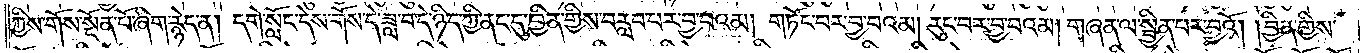ཀྱིས་གོས་སྔོན་པོ་ཞིག་རྙེད་ན། དགེ་སློང་དེས་གོས་དེ་ཟླ་བ་དེ་ཉིད་ཀྱི་ནང་དུ་བྱིན་གྱིས་བརླབ་པར་བྱ་བའམ། གཏོང་བར་བྱ་བའམ། རུང་བར་བྱ་བའམ། གཞན་ལ་སྦྱིན་པར་བྱའོ། །བྱིན་གྱིས་
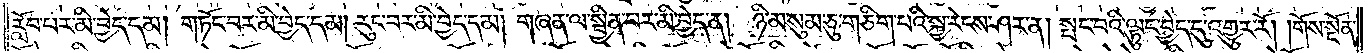རློབ་པར་མི་བྱེད་དམ། གཏོང་བར་མི་བྱེད་དམ། རུང་བར་མི་བྱེད་དམ། གཞན་ལ་སྦྱིན་པར་མི་བྱེད་ན། ཉི་མ་སུམ་ཅུ་གཅིག་པའི་སྐྱ་རེངས་ཤར་ན། སྤང་བའི་ལྟུང་བྱེད་དུ་འགྱུར་རོ། །གོས་སྔོན་
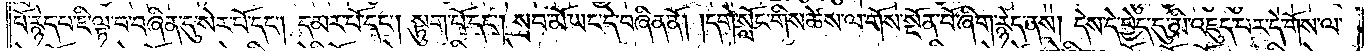པོ་རྙེད་པ་ཇི་ལྟ་བ་བཞིན་དུ་སེར་པོ་དང༌། དམར་པོ་དང༌། སྟུག་པོ་དང༌། སྲབ་མོ་ཡང་དེ་བཞིན་ནོ། །དགེ་སློང་གིས་ཚེས་ལ་གོས་སྔོན་པོ་ཞིག་རྙེད་ནས། དེས་དེ་ཕྱེད་དུ་མི་འཇུད་པར་དེ་གོས་ལ་
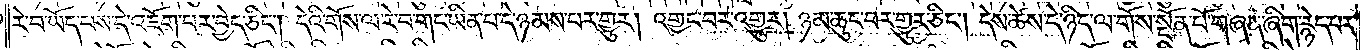རེ་བ་ཡོད་པས་དེ་འཇོག་པར་བྱེད་ཅིང༌། དེའི་གོས་ལ་རེ་བ་གང་ཡིན་པ་དེ་ཉམས་པར་གྱུར། འགྱང་བར་འགྱུར། ཉམ་ཆུང་བར་གྱུར་ཅིང༌། དེས་ཚེས་དེ་ཉིད་ལ་གོས་སྔོན་པོ་གཞན་ཞིག་རྙེད་པར་
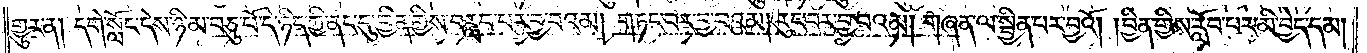གྱུར་ན། དགེ་སློང་དེས་ཉི་མ་བཅུ་པོ་དེ་ཉིད་ཀྱི་ནང་དུ་བྱིན་གྱིས་བརླབ་པར་བྱ་བའམ། གཏང་བར་བྱ་བའམ། རུང་བར་བྱ་བའམ། གཞན་ལ་སྦྱིན་པར་བྱའོ། །བྱིན་གྱིས་རློབ་པར་མི་བྱེད་དམ།
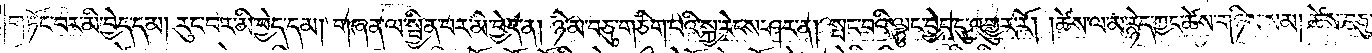གཏོང་བར་མི་བྱེད་དམ། རུང་བར་མི་བྱེད་དམ། གཞན་ལ་སྦྱིན་པར་མི་བྱེད་ན། ཉི་མ་བཅུ་གཅིག་པའི་སྐྱ་རེངས་ཤར་ན། སྤང་བའི་ལྟུང་བྱེད་དུ་འགྱུར་རོ། །ཚེས་ལ་མ་རྙེད་ཀྱང་ཚེས་གཉིས་སམ། ཚེས་བཅུ་
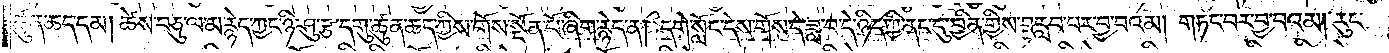ཚུན་ཆད་དམ། ཚེས་བཅུ་ལ་མ་རྙེད་ཀྱང་ཉི་ཤུ་རྩ་དགུ་ཚུན་ཆད་ཀྱིས་གོས་སྔོན་པོ་ཞིག་རྙེད་ན། དགེ་སློང་དེས་གོས་དེ་ཟླ་བ་དེ་ཉིད་ཀྱི་ནང་དུ་བྱིན་གྱིས་བརླབ་པར་བྱ་བའམ། གཏང་བར་བྱ་བའམ། རུང་
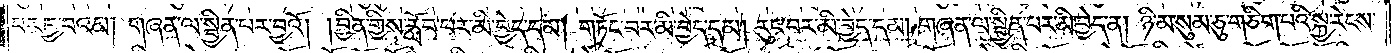བར་བྱ་བའམ། གཞན་ལ་སྦྱིན་པར་བྱའོ། །བྱིན་གྱིས་རློབ་པར་མི་བྱེད་དམ། གཏོང་བར་མི་བྱེད་དམ། རུང་བར་མི་བྱེད་དམ། གཞན་ལ་སྦྱིན་པར་མི་བྱེད་ན། ཉི་མ་སུམ་ཅུ་གཅིག་པའི་སྐྱ་རེངས་
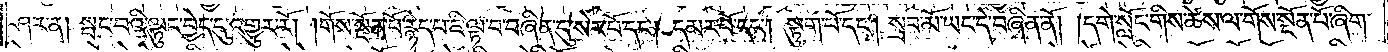ཤར་ན། སྤང་བའི་ལྟུང་བྱེད་དུ་འགྱུར་རོ། །གོས་སྔོན་པོ་རྙེད་པ་ཇི་ལྟ་བ་བཞིན་དུ་སེར་པོ་དང༌། དམར་པོ་དང༌། སྟུག་པོ་དང༌། སྲབ་མོ་ཡང་དེ་བཞིན་ནོ། །དགེ་སློང་གིས་ཚེས་ལ་གོས་སྔོན་པོ་ཞིག་
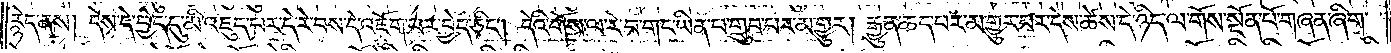རྙེད་ནས། དེས་དེ་བྱེད་དུ་མི་འཇུད་པར་དེ་རེ་བས་དེ་འཇོག་པར་བྱེད་ཅིང༌། དེའི་གོས་ལ་རེ་བ་གང་ཡིན་པ་གྲུབ་པར་མ་གྱུར། རྒྱུན་ཆད་པར་མ་གྱུར་པར་དེས་ཚེས་དེ་ཉིད་ལ་གོས་སྔོན་པོ་གཞན་ཞིག་
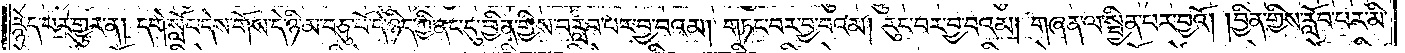རྙེད་པར་གྱུར་ན། དགེ་སློང་དེས་གོས་དེ་ཉི་མ་བཅུ་པོ་དེ་ཉིད་ཀྱི་ནང་དུ་བྱིན་གྱིས་བརླབ་པར་བྱ་བའམ། གཏང་བར་བྱ་བའམ། རུང་བར་བྱ་བའམ། གཞན་ལ་སྦྱིན་པར་བྱའོ། །བྱིན་གྱིས་རློབ་པར་མི་
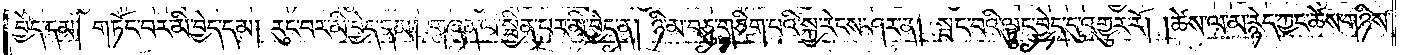བྱེད་དམ། གཏོང་བར་མི་བྱེད་དམ། རུང་བར་མི་བྱེད་དམ། གཞན་ལ་སྦྱིན་པར་མི་བྱེད་ན། ཉི་མ་བཅུ་གཅིག་པའི་སྐྱ་རེངས་ཤར་ན། སྤང་པའི་ལྟུང་བྱེད་དུ་འགྱུར་རོ། །ཚེས་ལ་མ་རྙེད་ཀྱང་ཚེས་གཉིས་
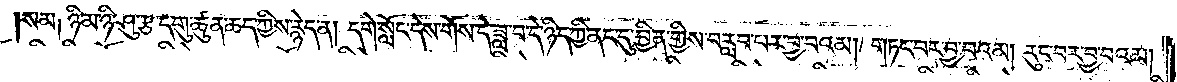སམ། ཉི་མ་ཉི་ཤུ་རྩ་དགུ་ཚུན་ཆད་ཀྱིས་རྙེད་ན། དགེ་སློང་དེས་གོས་དེ་ཟླ་བ་དེ་ཉིད་ཀྱི་ནང་དུ་བྱིན་གྱིས་བརླབ་པར་བྱ་བའམ། གཏང་བར་བྱ་བའམ། རུང་བར་བྱ་བའམ། །
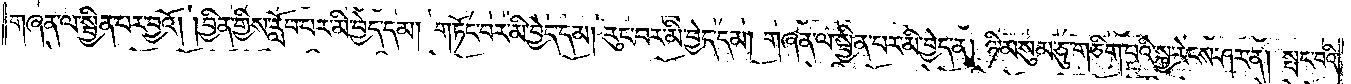གཞན་ལ་སྦྱིན་པར་བྱའོ། །བྱིན་གྱིས་རློབ་པར་མི་བྱེད་དམ། གཏོང་བར་མི་བྱེད་དམ། རུང་བར་མི་བྱེད་དམ། གཞན་ལ་སྦྱིན་པར་མི་བྱེད་ན། ཉི་མ་སུམ་ཅུ་གཅིག་པའི་སྐྱ་རེངས་ཤར་ན། སྤང་བའི་
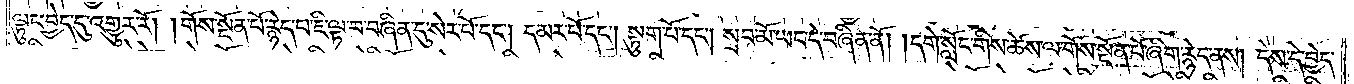ལྟུང་བྱེད་དུ་འགྱུར་རོ། །གོས་སྔོན་པོ་རྙེད་པ་ཇི་ལྟ་བ་བཞིན་དུ་སེར་པོ་དང༌། དམར་པོ་དང༌། སྟུག་པོ་དང༌། སྲབ་མོ་ཡང་དེ་བཞིན་ནོ། །དགེ་སློང་གིས་ཚེས་ལ་གོས་སྔོན་པོ་ཞིག་རྙེད་ནས། དེས་དེ་བྱེད་
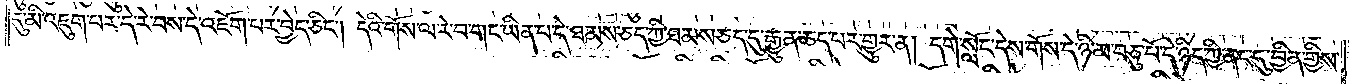དུ་མི་འཇུག་པར་དེ་རེ་བས་དེ་འཇོག་པར་བྱེད་ཅིང༌། དེའི་གོས་ལ་རེ་བ་གང་ཡིན་པ་དེ་ཐམས་ཅད་ཀྱི་ཐམས་ཅད་དུ་རྒྱུན་ཆད་པར་གྱུར་ན། དགེ་སློང་དེས་གོས་དེ་ཉི་མ་བཅུ་པོ་དེ་ཉིད་ཀྱི་ནང་དུ་བྱིན་གྱིས་
